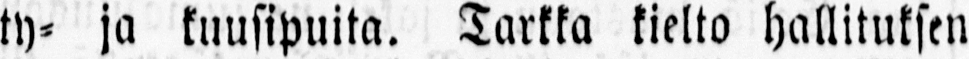ty- ja kuusipuita. Tarkka kielto hallituksen
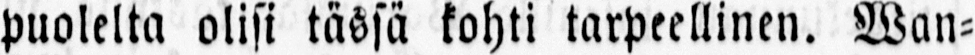puolelta olisi tässä kohti tarpeellinen. Wan-
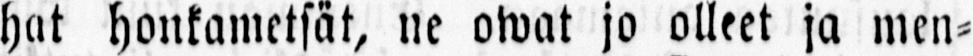hat honkametsät, ne owat jo olleet ja men-
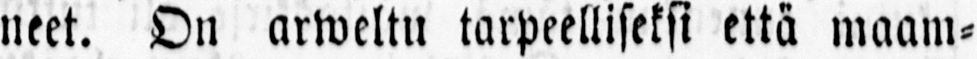neet. On arweltu tarpeelliseksi että maam-
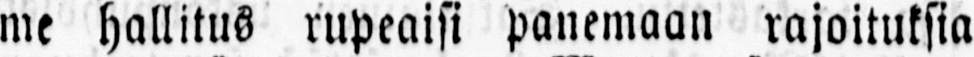me hallitus rupeaisi panemaan rajoituksia
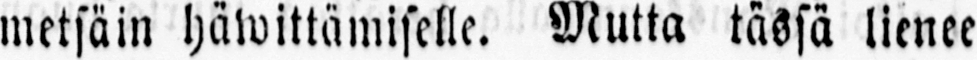metsäin häwittämiselle. Mutta tässä lienee
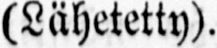(Lähetetty).
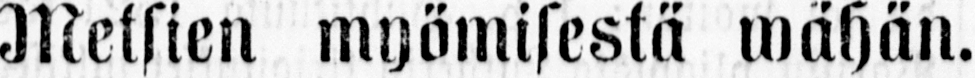Metsien myömisestä wähän.
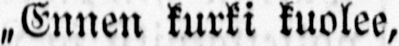„Ennen kurki kuolee,
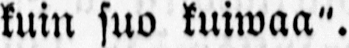kuin suo kuiwaa".
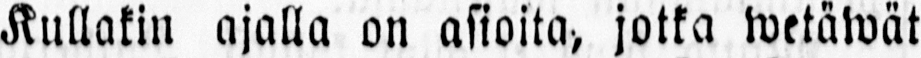Kullakin ajalla on asioita, jotka wetäwät
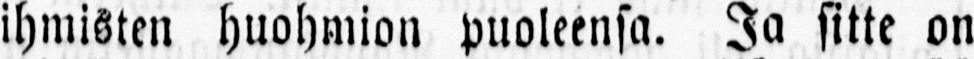ihmisten huohmion puoleensa. Ja sitte on
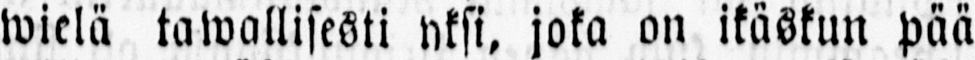wielä tawallisesti yksi, joka on ikäskun pää
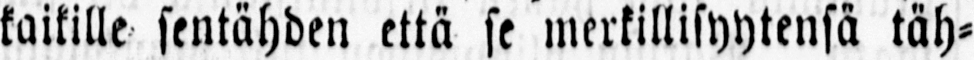kaikille sentähden että se merkillisyytensä täh-
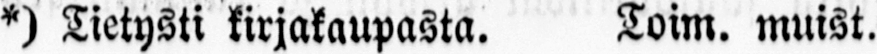*) Tietysti kirjakaupasta. Toim. muist.
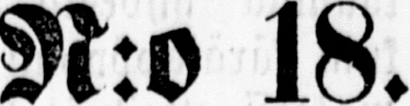N:o 18.
